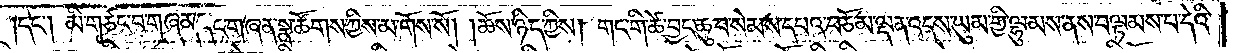དང༌། མི་གཙང་བ་གཞན་དང་གཞན་སྣ་ཚོགས་ཀྱིས་མ་གོས་སོ། །ཆོས་ཉིད་ཀྱིས། གང་གི་ཚེ་བྱང་ཆུབ་སེམས་དཔའ་བཅོམ་ལྡན་འདས་ཡུམ་གྱི་ལྷུམས་ནས་བལྟམས་པ་དེའི་
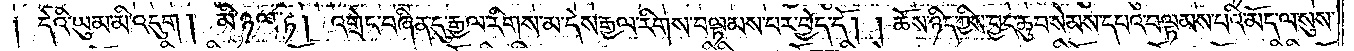ཚེ། དེའི་ཡུམ་མི་འདུག །མི་ཉལ་ཏེ། འགྲེང་བཞིན་དུ་རྒྱལ་རིགས་མ་དེས་རྒྱལ་རིགས་བལྟམས་པར་བྱེད་དོ། །ཆོས་ཉིད་ཀྱིས་བྱང་ཆུབ་སེམས་དཔའ་བལྟམས་པའི་མོད་ལ་སུས་
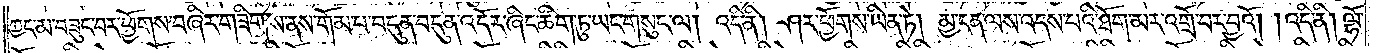ཀྱང་མ་བཟུང་བར་ཕྱོགས་བཞིར་གཟིགས་ནས་གོམ་པ་བདུན་བདུན་འདོར་ཞིང་ཚིག་ཏུ་ཡང་གསུང་ལ། འདི་ནི། ཤར་ཕྱོགས་ཡིན་ཏེ། མྱ་ངན་ལས་འདས་པའི་ཐོག་མར་འགྲོ་བར་བྱའོ། །འདི་ནི། ལྷོ་
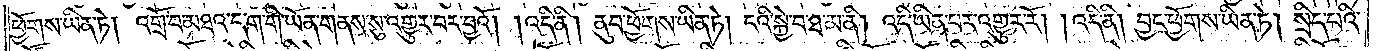ཕྱོགས་ཡིན་ཏེ། འགྲོ་བ་མཐའ་དག་གི་ཡོན་གནས་སུ་འགྱུར་བར་བྱའོ། །འདི་ནི། ནུབ་ཕྱོགས་ཡིན་ཏེ། ངའི་སྐྱེ་བ་ཐ་མ་ནི། འདི་ཡིན་པར་འགྱུར་རོ། །འདི་ནི། བྱང་ཕྱོགས་ཡིན་ཏེ། སྲིད་པའི་
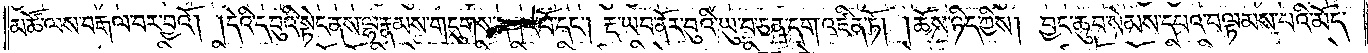མཚོ་ལས་བརྒལ་བར་བྱའོ། །དེའི་དབུའི་སྟེང་ནས་ལྷ་རྣམས་གདུགས་དཀར་པོ་དང༌། རྔ་ཡབ་ནོར་བུའི་ཡུ་བ་ཅན་དག་འཛིན་ཏོ། །ཆོས་ཉིད་ཀྱིས། བྱང་ཆུབ་སེམས་དཔའ་བལྟམས་པའི་མོད་
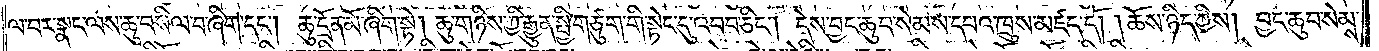ལ་བར་སྣང་ལས་ཆུ་བསིལ་བ་ཞིག་དང༌། ཆུ་དྲོན་མོ་ཞིག་སྟེ། ཆུ་གཉིས་ཀྱི་རྒྱུན་སྤྱི་གཙུག་གི་སྟེང་དུ་འབབ་ཅིང༌། དེས་བྱང་ཆུབ་སེམས་དཔའ་ཁྲུས་མཛད་དོ། །ཆོས་ཉིད་ཀྱིས། བྱང་ཆུབ་སེམས་
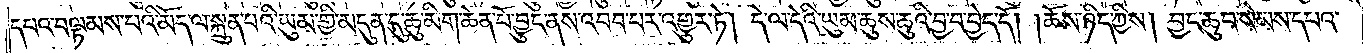དཔའ་བལྟམས་པའི་མོད་ལ་སྐྲུན་པའི་ཡུམ་གྱི་མདུན་དུ་ཆུ་མིག་ཆེན་པོ་བྱུང་ནས་འབབ་པར་འགྱུར་ཏེ། དེ་ལ་དེའི་ཡུམ་ཆུས་ཆུའི་བྱ་བ་བྱེད་དོ། །ཆོས་ཉིད་ཀྱིས། བྱང་ཆུབ་སེམས་དཔའ་
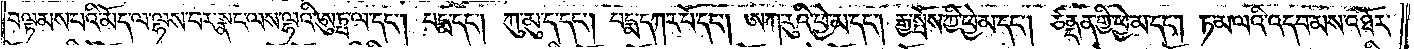བལྟམས་པའི་མོད་ལ་ལྷས་བར་སྣང་ལས་ལྷའི་ཨུཏྤ་ལ་དང༌། པདྨ་དང༌། ཀུ་མུ་ད་དང༌། པདྨ་དཀར་པོ་དང༌། ཨ་ཀ་རུའི་ཕྱེ་མ་དང༌། རྒྱ་སྤོས་ཀྱི་ཕྱེ་མ་དང༌། ཙནྡན་གྱི་ཕྱེ་མ་དང༌། ཏ་མ་ལའི་འདབ་མས་འཐོར་
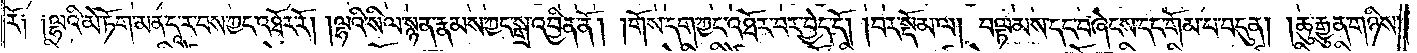རོ། །ལྷའི་མེ་ཏོག་མན་དཱ་ར་བས་ཀྱང་འཐོར་རོ། །ལྷའི་སིལ་སྙན་རྣམས་ཀྱང་སྒྲ་འབྱིན་ནོ། །གོས་དག་ཀྱང་འཐོར་བར་བྱེད་དོ། །བར་སྡོམ་ལ། བལྟམས་དང་བཞེངས་དང་གོམ་པ་བདུན། །ཆུ་རྒྱུན་གཉིས་
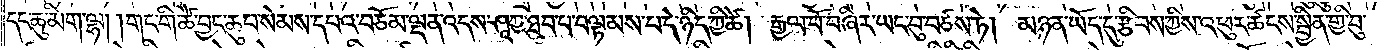དང་ཆུ་མིག་ལྷ། །གང་གི་ཚེ་བྱང་ཆུབ་སེམས་དཔའ་བཅོམ་ལྡན་འདས་ཤཱཀྱ་ཐུབ་པ་བལྟམས་པ་དེ་ཉིད་ཀྱི་ཚེ། རྒྱལ་པོ་བཞིར་ཡང་བུ་བཙས་ཏེ། མཉན་ཡོད་དུ་རྩིབས་ཀྱིས་འཕུར་ཚངས་སྦྱིན་གྱི་བུ་
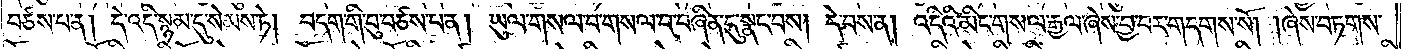བཙས་པ་ན། དེ་འདི་སྙམ་དུ་སེམས་ཏེ། བདག་གི་བུ་བཙས་པ་ན། ཡུལ་གསལ་བ་གསལ་བ་བཞིན་དུ་སྣང་བས། དེ་བས་ན། འདིའི་མིང་གསལ་རྒྱལ་ཞེས་བྱ་བར་གདགས་སོ། །ཞེས་བཏགས་
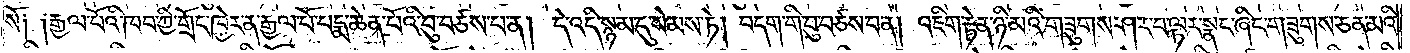སོ། །རྒྱལ་པོའི་ཁབ་ཀྱི་གྲོང་ཁྱེར་ན་རྒྱལ་པོ་པདྨ་ཆེན་པོའི་བུ་བཙས་པ་ན། དེ་འདི་སྙམ་དུ་སེམས་ཏེ། བདག་གི་བུ་བཙས་པ་ན། འཇིག་རྟེན་ཉི་མའི་གཟུགས་ཤར་བ་ལྟར་སྣང་ཞིང་གཟུགས་ཅན་མའི་
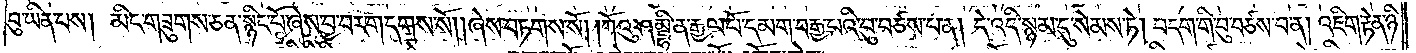བུ་ཡིན་པས། མིང་གཟུགས་ཅན་སྙིང་པོ་ཞེས་བྱ་བར་གདགས་སོ། །ཞེས་བཏགས་སོ། །ཀོའུ་ཤམྦྷི་ན་རྒྱལ་པོ་དམག་བརྒྱ་པའི་བུ་བཙས་པ་ན། དེ་འདི་སྙམ་དུ་སེམས་ཏེ། བདག་གི་བུ་བཙས་པ་ན། འཇིག་རྟེན་ཉི་
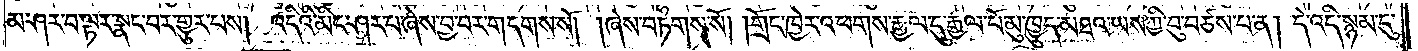མ་ཤར་བ་ལྟར་སྣང་བར་གྱུར་པས། འདིའི་མིང་ཤར་པ་ཞེས་བྱ་བར་གདགས་སོ། །ཞེས་བཏགས་སོ། །གྲོང་ཁྱེར་འཕགས་རྒྱལ་དུ་རྒྱལ་པོ་མུ་ཁྱུད་མཐའ་ཡས་ཀྱི་བུ་བཙས་པ་ན། དེ་འདི་སྙམ་དུ་
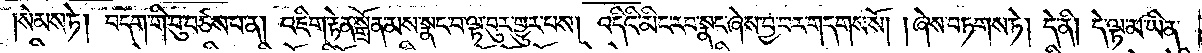།སེམས་ཏེ། བདག་གི་བུ་བཙས་པ་ན། འཇིག་རྟེན་སྒྲོན་མས་སྣང་བ་ལྟ་བུར་གྱུར་པས། འདིའི་མིང་རབ་སྣང་ཞེས་བྱ་བར་གདགས་སོ། །ཞེས་བཏགས་ཏེ། དེ་ནི། དེ་ལྟ་མ་ཡིན་
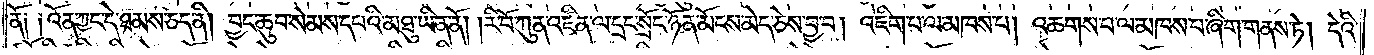ནོ། །འོན་ཀྱང་དེ་ཐམས་ཅད་ནི། བྱང་ཆུབ་སེམས་དཔའི་མཐུ་ཡིན་ནོ། །རི་བོ་ཀུན་འཛིན་ལ་དྲང་སྲོང་ཉོན་མོངས་མེད་ཅེས་བྱ་བ། འཇིག་པ་ལ་མཁས་པ། འཆགས་པ་ལ་མཁས་པ་ཞིག་གནས་ཏེ། དེའི་
